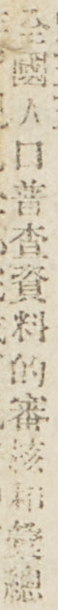全國人口普查資料的審核和彙總
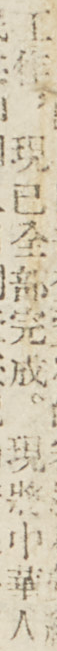工作，現已全部完成。現將中華人
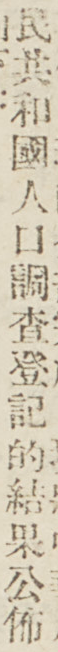民共和國人口調查登記的結果公佈
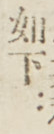如下：
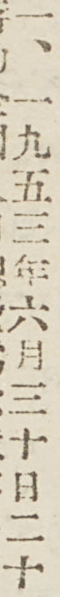一、一九五五年六月三十日二十
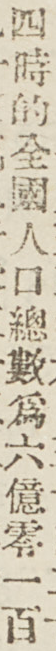四時的全國人口總數爲六億零一百
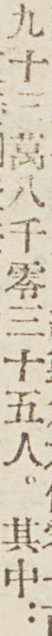九十三萬八千零三十五人。其中：
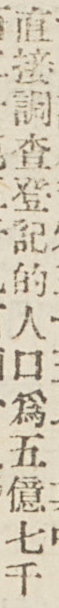直接調查登記的人口爲五億七千
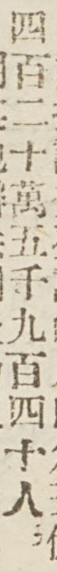四百二十萬五千九百四十人；
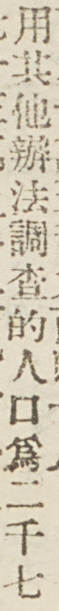用其他辦法調查的人口爲二千七
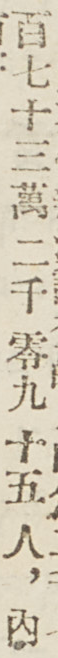百七十三萬二千零九十五人，內
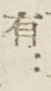有：
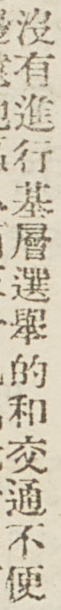沒有進行基層選舉的和交通不便
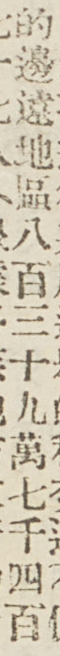的邊遠地區八百三十九萬七千四百
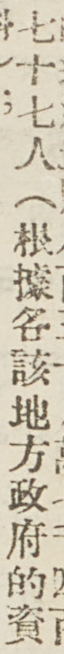七十七人（根據各該地方政府的資
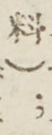料）：
